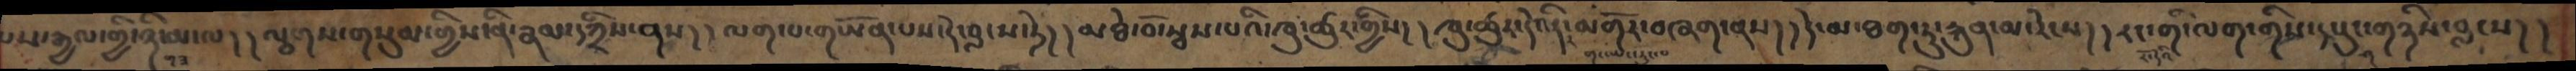པས་རྒྱལ་གྱི་ཉི་མ་ལ།།ལྕགས་གསུམ་གྱིས་ནི་རྣམ་དཀྲིས་ནས།།ལག་པ་གཡོན་པས་དེ་བླངས་ཏེ།།མཐེ་བོ་སྦས་པའི་ཁུ་ཚུར་གྱིས།།ཁུ་ཚུར་དེ་འདི་མགོར་བཞག་ནས།།དེ་མ་ཐག་ཏུ་རྐུན་མ་རེངས།།རང་གི་ལག་གིས་དཔུང་གཉིས་བླངས།།
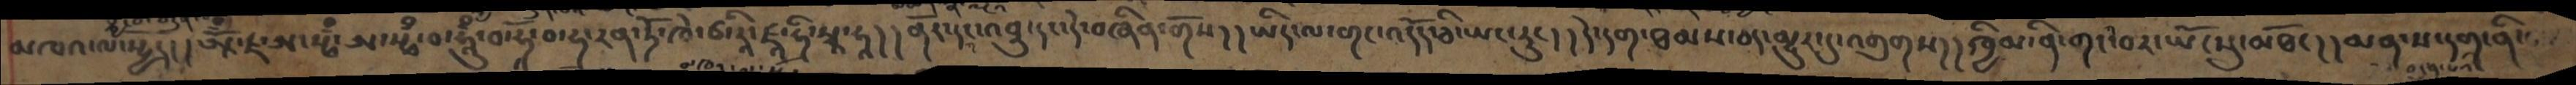མཁའ་ལ་སྤྱོད། །ཨཱོྃ་ཛ་ཨ་སྤྃ་ཨ་སྤྃ་བ་ཧཱུྃ་བ་ཧཱོ་བ་ཧ་རན་ཏོ་ཁེ་ཙ་རཱི་ཛཱ་ཧི་སྭཱ་ཧཱ། ནོར་དང་འབྲུ་དང་དེ་བཞིན་གོས། །ཡིད་ལ་གང་འདོད་ཅི་ཡང་རུང། །དེ་དག་ཐམས་ཅད་མྱུར་དུ་འགུགས། །ཁྱིམ་ནི་གང་བར་ཡོངསུ་མཐོང། །མན་ས་དག་ནི་
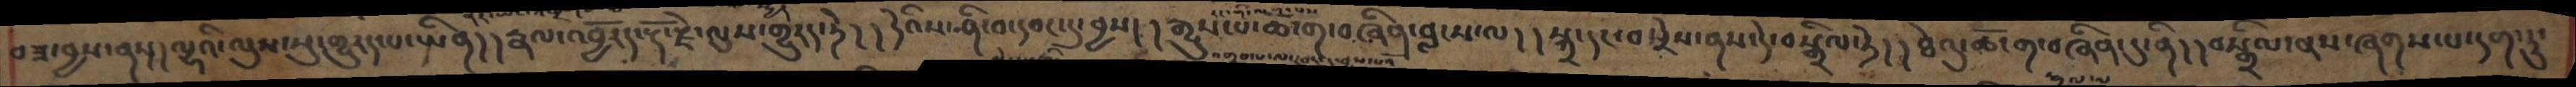བཟ་བྱས་ནས། །ལྷའི་ལུས་སུ་གྱུརད་པ་ཡིན། །རྣལ་འབྱོརད་རྡོ་རྗེ་ལུས་གྱུརད་ཏེ། །དེའིས་ཤི་བ་དབང་དུ་བྱས། །རྒྱུས་པ་ཆོ་ག་བཞིན་བླངས་ལ། །སྐྲ་དང་བསྲེས་ནས་དེ་བསྒྲིལ་ཏེ། །ཐེའུ་ཆོ་ག་བཞིན་དུ་ནི། །བསྒྲིལ་ནས་ཞགས་པ་དག་ཏུ་
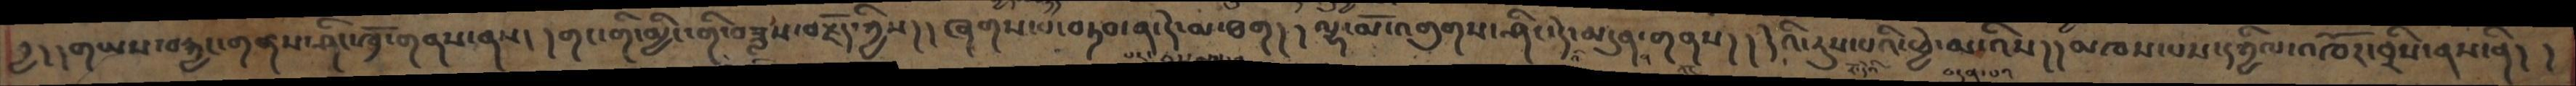བྱ། །གཡས་བརྐྱང་གནས་ཤིང་ཁྲོ་གནས་ནས། །གང་གི་མྱིང་གི་བཟླས་བརྗོད་ཀྱིས། །ཞགས་པ་བཏབ་ན་དེ་མ་ཐག། །ལྷ་མོ་འགུགས་ཤིང་དེ་མདུན་གནས། །དེའི་རུས་པའི་ཕྱེ་མ་འིས། །མཁས་པས་དཀྱིལ་འཁོར་བྲིས་ནས་ནི། །
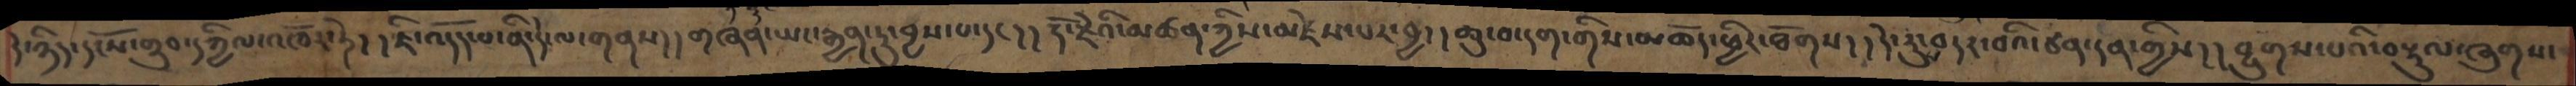དེ་ཉིད་དངོས་གྲུབ་དཀྱིལ་འཁོར་ཏེ། །ཇི་འདོད་པ་ནི་དེ་ལ་གནས། །གཞན་ཡང་རྒྱན་ཏུ་བྱས་པ་དང། །རྡོ་རྗེའི་མཚན་ཀྱིས་མཛེས་པར་བྱ། །ཆུ་བ་དག་གིས་མཆོད་ཕྱིར་ཐོགས། །དེ་རུ་བདར་བའི་ཙན་དན་གྱིས། །བྱུགས་པའི་བརྟུལ་ཞུགས་
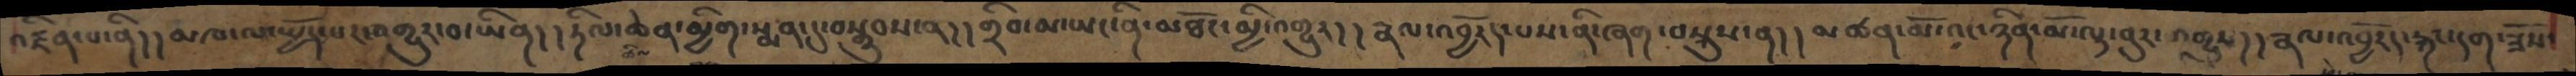འཛིན་པ་ནི། །མཁ་ལ་སྤྱོད་པར་འགྱུར་བ་ཡིན། །ཏིལ་ཆེན་མྱིག་སྨན་དུ་བསྒྲུབས་ན། །གྲིབ་མ་ཡང་ནི་མཐོང་མྱི་འགྱུར། །རྣལ་འབྱོརད་པས་ནི་ཞག་བསྐུས་ན། །མཚན་མོ་འང་ཉིན་མོ་ལྟ་བུར་འགྱུར། །རྣལ་འབྱོརད་རྐང་དག་ཟོས་
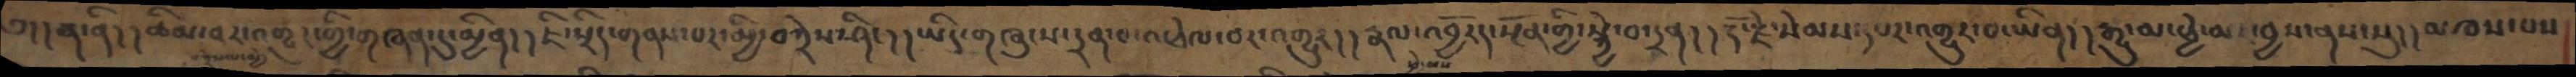༄།།ན་ནི།།ཚིམ་པར་འགྱུར་གྱི་གཞན་དུ་མྱིན།།ཇི་སྲིད་གནས་པར་མྱི་བཀྲེས་ཤིང།།ཡིད་གཞུངས་དྲན་པ་འཕེལ་བར་འགྱུར།།རྣལ་འབྱོརད་སྔོན་གྱི་སྐྱེ་བ་དྲན།།རྡོ་རྗེ་སེམས་དཔར་འགྱུར་བ་ཡིན།།རྒྱུ་མ་ཕྱེ་མར་བྱས་ནས་སུ།།མཁས་པས
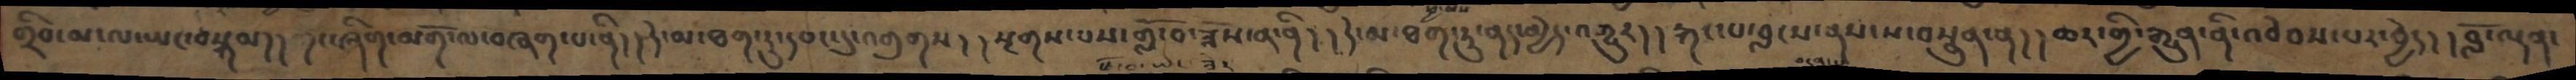གྲིབ་མ་ལ་ཡང་བསྐམ།།གང་ཞིག་མགོ་ལ་བཞག་པ་ནི།།དེ་མ་ཐག་ཏུ་དབང་དུ་འགུགས།།སྔགས་པས་གློ་བོ་ཟོས་ན་ནི།།དེ་མ་ཐག་ཏུ་ནད་མྱེད་འགྱུར།།རྐང་པ་བླངས་ནས་ས་བསྣུན་ན།།ཆར་གྱི་རྒྱུན་ནི་འབེབས་པར་བྱེད།།བློ་ལྡན་
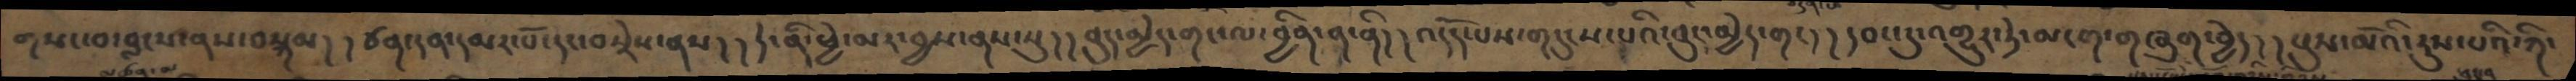གསང་བ་བླངས་ནས་བསྐམ།།ཙན་དན་དམར་པོ་དང་བསྲེས་ནས།།དེ་ནི་ཕྱེ་མར་བྱས་ནས་སུ།།བུད་མྱེད་གང་ལ་བྱིན་ན་ནི།།འདོད་པས་གདུངས་པའི་བུད་མྱེད་གང།།དབང་དུ་འགྱུར་ཏེ་མངག་གཞུག་བྱེད།།པུས་མོའི་རུས་པའི་ཀི་
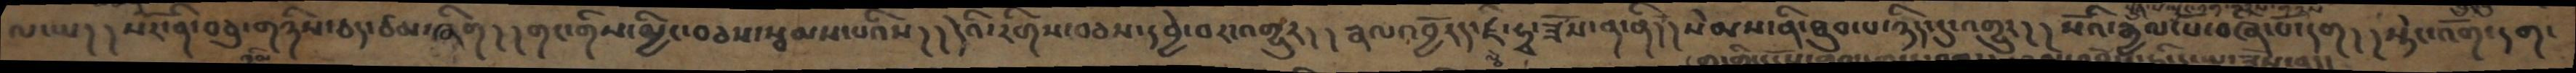ལ་ཡ།།སོར་ནི་བཅུ་གཉིས་ཅད་ཙམ་ཞིག།།གང་གིས་མྱིང་བཅས་སྦམས་པའིས།།དེའི་རིགས་བཅས་དབྱེ་བར་འགྱུར། །རྣལ་འབྱོརད་ཛི་ཧྭ་ཟོས་ན་ནི།།སེམས་ནི་ཐུབ་པ་ཉིད་དུ་འགྱུར།།སོའི་རྒྱལ་པོ་བཞི་པོ་དག།།སྟེང་འོག་དག་
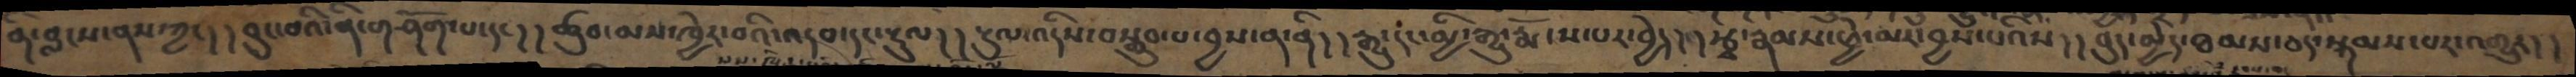ནི་བླངས་ནས་ཀྱང།།བུང་བའི་ནི་གཤོག་པ་དང།། ཚུབ་མས་ཁྱེར་བའི་འདབ་དང་རྡུལ།།རྡུལ་འདིས་བསྒྲུབ་པ་བྱས་ན་ནི།།རྒྱུ་དང་མྱི་རྒྱུ་རྨོངས་པར་བྱེད།།རྩྭ་རྣམས་ཕྱེ་མར་བྱས་པའིས།།བུད་མྱེད་ཐམས་ཅད་སྐམས་པར་འགྱུར།།
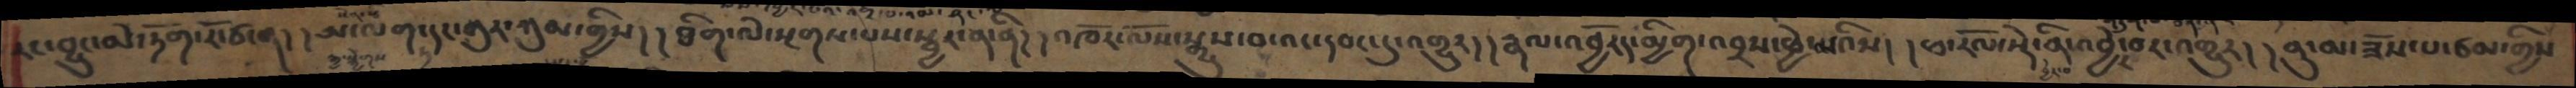རང་བྱུང་མེ་ཏོག་རོ་ཙ་ན།།ཨ་ལག་ཏ་དང་གུར་ཀུམ་གྱིས།།ཐིག་ལེ་སྔགས་པས་སྦྱར་ན་ནི།།འཁོར་ལོས་སྒྱུས་བ་འང་དབང་དུ་འགྱུར།།རྣལ་འབྱོརད་མྱིག་འབྲས་ཕྱེ་མའིས།།ཕ་རོལ་སྡེ་ནི་འབྱེད་བར་འགྱུར།།ནུ་མ་ཟོས་པ་ཙམ་གྱིས
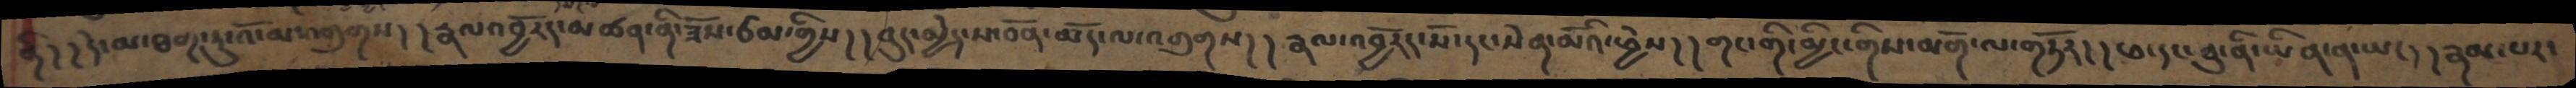ནི།།དེ་མ་ཐག་ཏུ་འོ་མ་འགུགས།།རྣལ་འབྱོརད་མཚན་ནི་ཟོས་ཙམ་གྱིས།།བུད་མྱེད་ས་བོན་མོད་ལ་འགུགས། །རྣལ་འབྱོརད་སོ་དང་སེན་མོའི་ཕྱེས། །གང་གི་མྱིང་གིས་མགོ་ལ་གཏོར།།ཕ་དང་བུ་ནི་ཡིན་ན་ཡང།།རྣམ་པར་
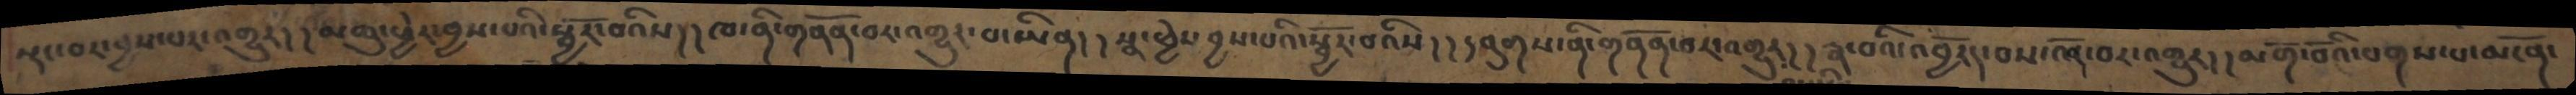སྡང་བར་བྱས་པར་འགྱུར།།མཆུ་ཕྱེར་བྱས་པའི་སྦྱོར་བའིས།།ཁ་ནི་གནོན་བར་འགྱུར་བ་ཡིན།།སྣ་ཕྱེར་བྱས་པའི་སྦྱོར་བའིས།།དབུགས་ནི་གནོན་བར་འགྱུར།། རྣ་བའི་འབྱོརད་བས་འོད་བར་འགྱུར། །མགོ་བོའི་པགས་པ་མངོན་
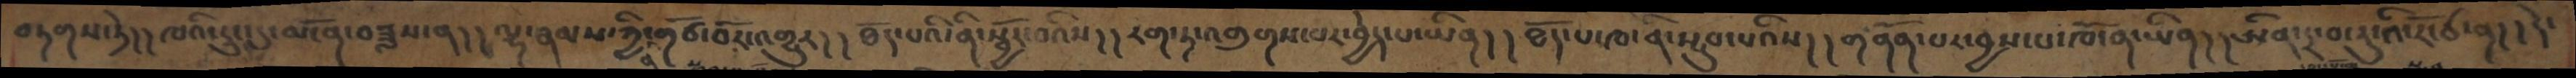བཏགས་ཏེ། །ཁའི་རླུང་དུ་མངོན་བཟླས་ན། །ལྷ་རྣམས་ཀྱི་ནི་གཙོ་བོར་འགྱུར། །ཐོད་པའི་ནི་སྦྱོར་བའིས། །རག་ཏ་འགུགས་པར་བྱེད་པ་ཡིན། །ཐོད་པ་ཁ་ནི་སྦུབ་པའིས། །གནོན་པར་བྱས་པ་ཁོ་ན་ཡིན། །ཨིན་དྲ་བ་རུ་འི་རོ་ཙ་ན། །དེ་
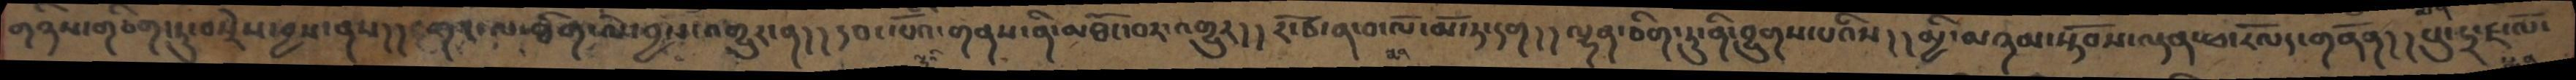གཉིས་གཅིག་ཏུ་བསྲེས་བྱས་ནས།།གང་ལ་ཐིག་ལེ་བྱས་འགྱུར་ན།།དབང་པོའི་གནས་ནི་མཐོང་བར་འགྱུར།།རོ་ཙ་ན་བ་ལོ་མོ་ཏ་དག།།ལྷན་ཅིག་ཏུ་ནི་བྱུགས་པའིས།།མྱི་མཉམ་སྟོབས་ལྡན་ཕ་རོལད་གནོན།།པུ་དྲ་ཛ་ལོ་
